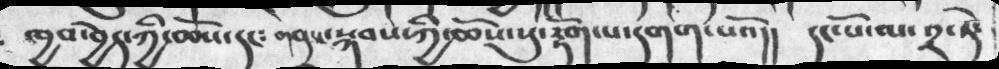ཁྱབ་བྱེད་ཀྱི་ཆོས་དང༴ གནས་སྐབས་ཀྱི་ཆོས་སུ་རྟོག་པ་དགག་པའོ།།  དང་པོ་ལ་༢་ཏེ་
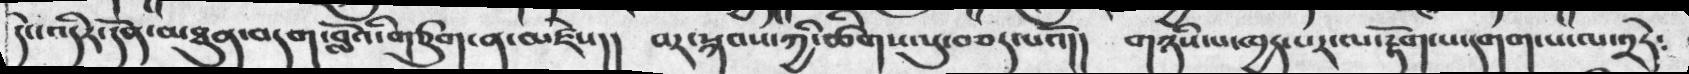དེང་འདིར་དོན་མཐུན་བདག་བློའི་གཙུག་ན་མཛེས།།  བར་སྐབས་ཀྱི་ཚིགས་སུ་བཅད་པའོ།།  གཉིས་པ་ཁྱད་པར་རྟོག་པ་དགག་པ་ལ་༢ཏེ༴
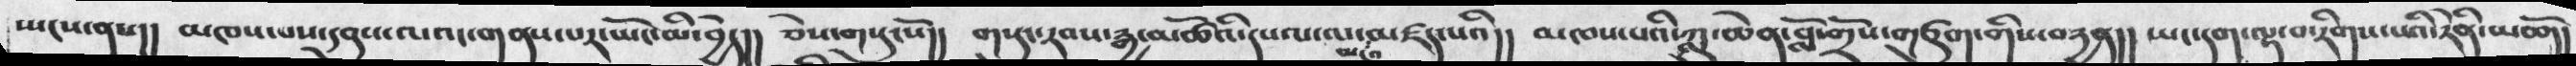ཡངས་ནས།། མཁས་པས་དབུས་ལའང་གནས་པར་ཡོང་མི་བྱེད།།  ཅེས་གསུངསོ།།   གསུང་རབ་རྒྱ་མཚོའི་དཔལ་ལ་མངའ་མཛད་པའི།།  མཁས་པའི་ཀླུ་ཆེན་གཙུག་གིས་བརྱན།།  ཡང་དག་ལྟ་བ་རིགས་པའི་རེནི་མཆོ།།
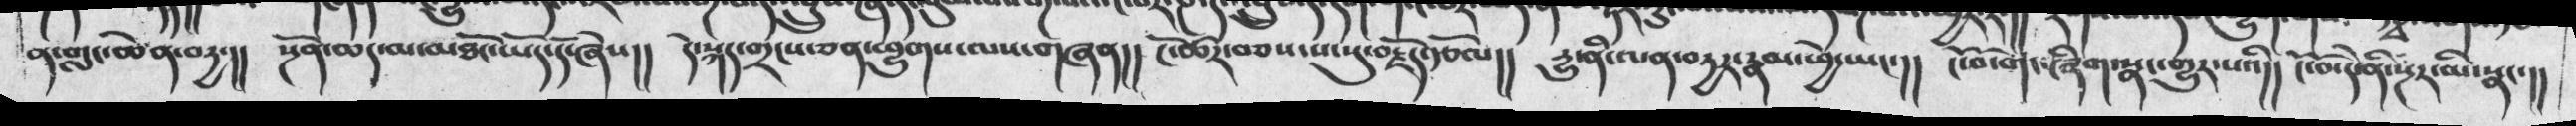ན་གླང་ཆེན་བདྱ་།།  སྔོན་ཆད་མ་མཐོང་ཡོད་དོ་ཞེས།།  དེ་སྐད་གྲངས་ཅན་ཕྱུགས་ལས་གཞན།།  ངོ་ཚར་བཅས་པ་སུ་བརྗོད་རྩོལ།།  དྱུ་ནི་ལན་བདྱར་རྣམ་ཕྱེ་ཡང་།།  ངོ་བོ་གང་ཞིག་སྣང་གྱུར་པའི།།  ངོ་བོ་དེ་ནི་སྔར་མི་སྣང་།།
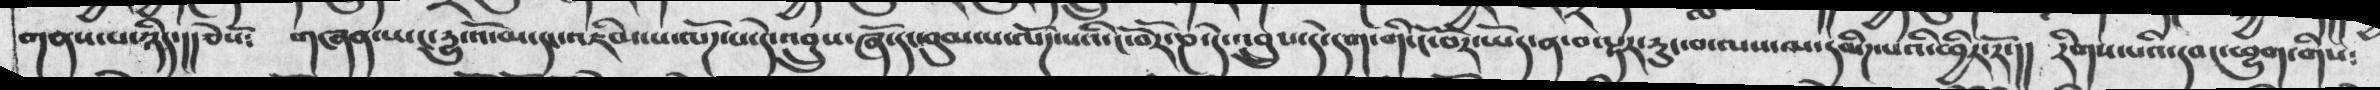གནས་པ་ཉིད་།།ཅེསོ༴  གཞན་ཡང་དྱུ་འོ་མ་དང་འཇིམ་པ་ལོཌ་པ་དེ་འབྲུས་ཞོ་དང་བུམ་པ་ལོཌ་པའི་ངོ་བོར་ཎ་དེ་འབྲུས་དེ་དག་གི་ངོ་བོར་ཡོད་ན་བལྟར་རུང་བ་ལས་མ་དམིཌ་པའི་ཕྱིར་རོ་།།  རིགས་པའི་དབང་ཕྱུག་གིས༴
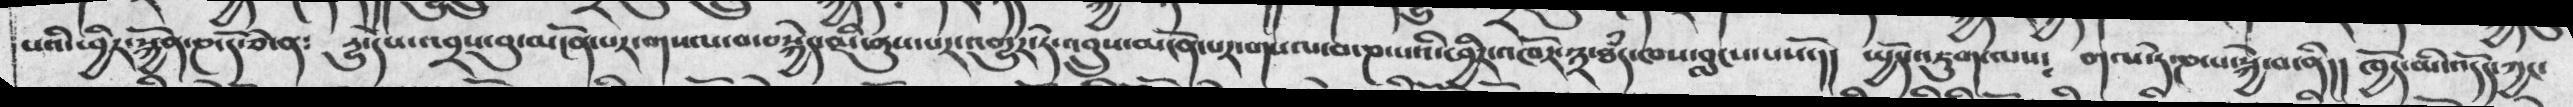པའི་ཕྱིར་སྐྱོན་ཎ་དོ་ཅེ་ན༴  དྱུ་དེས་འབྲས་བུ་མངོན་པར་གསལ་བ་བསྐྱེད་མི་ནུས་པར་འགྱུར་ཏེ་འབྲུས་མངོན་པར་གསལ་བ་ཎ་པའི་ཕྱིར་འཁོར་༣་ཐཾད་ཁས་བླངས་པསོ་།།  སྤྱོད་འཇུག་ལས༴  གལ་ཏེ་ཎ་པ་སྐྱེ་བ་ནི།།  ཁྱོད་མི་འདོད་ཀྱང་
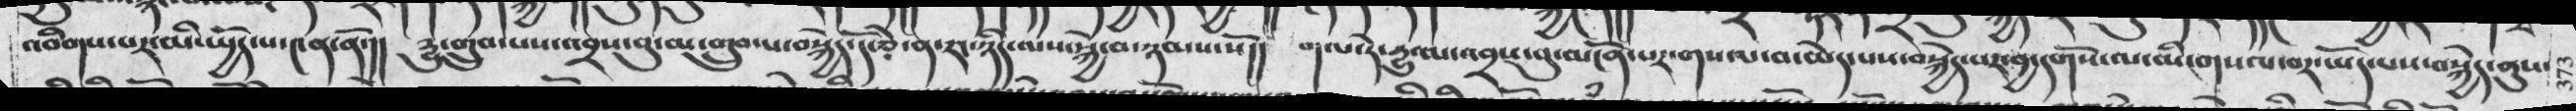འབིགས་པར་མི་སྤྱོད་པ་༤ན་ནོ་།།  དྱུ་གྲུབ་པས་འབྲས་བུ་མ་གྲུབ་པ་བསྐྱེད་དོ་ཅེ་ན་རང་ཉིད་ལས་སྐྱེ་བ་ཉམས་སོ།།  གལ་ཏེ་དྱུ་ལ་འབྲས་བུ་མངོན་པར་གསལ་བ་མེད་པས་བསྐྱེད་པར་བྱ་དགོས་ལ་མི་གསལ་བར་ཡོད་པས་བསྐྱེད་ནུས་
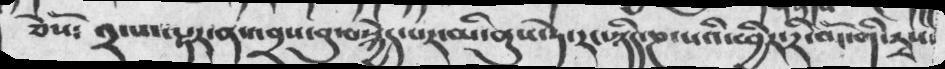ཅེསོ༴ ༢་པ་ལྟར་ནས་འབྲས་བུ་བསྐྱེད་པར་མི་ནུས་ཏེ་རང་ཉིད་ཎ་པའི་ཕྱིར་རི་བོང་གི་རྭས་
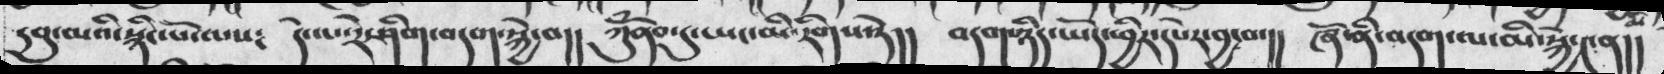དབུ་མའི་སྙིང་པོ་ལས༴  དེ་ལ་རེ་ཤིག་བདག་སྐྱེ་བ།། ཀོུཾནབ་དུ་ཡང་མི་རིགས་ཏེ།།  བདག་ཉིད་ཡོད་ཕྱིར་དཔེར་བྱ་བ་།།  ཞོ་ནི་བདག་ལ་མི་སྐྱེ་༤ན།།
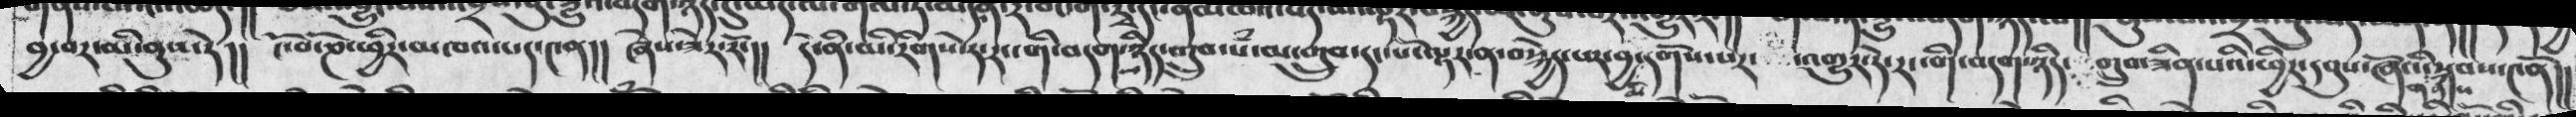བྱ་བར་མི་ནུས་ཏེ།།  ངོ་བོ་ཎ་ཕྱིར་མཁའ་པད་༤ན།།  ཞེས་ཟེར་རོ་།།  དེ་ནི་མི་རིགས་ཏེ་རང་གི་བདག་ཉིད་གྲུབ་བཾ་མ་གྲུབ་དང་པོ་ལྟར་ན་བསྐྱེད་པར་བྱ་མི་དགོས་པར་  ་འགྱུར་ཏེ་རང་གི་བདག་ཉིད་  གྲུབ་ཟིན་པའི་ཕྱིར་དབུས་ཞོའི་གནས་སྐབས་༤ནོ།།
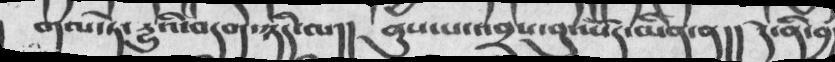གལ་ཏེ་དྱུའི་བདག་ཉིད་ལ།།  ནུས་པ་འབྲས་བུ་ཡོད་མིན་ན།།  དེ་ནི་བྱ
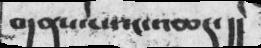གནས་པའང་འཆད་།།
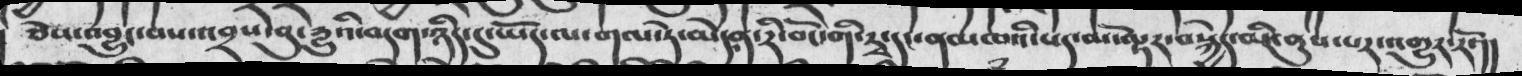ཅེས་འབྱུང་བས་འབྲས་བུ་དྱུའི་བདག་ཉིད་དུ་ཡོད་ལ་གལ་ཏེ་མེད་ན་རི་བོང་གི་རྭ་དང་ནམཁའི་པད་མ་ལྟར་བསྐྱེད་མི་ནུས་པར་འགྱུར་རོ་།།
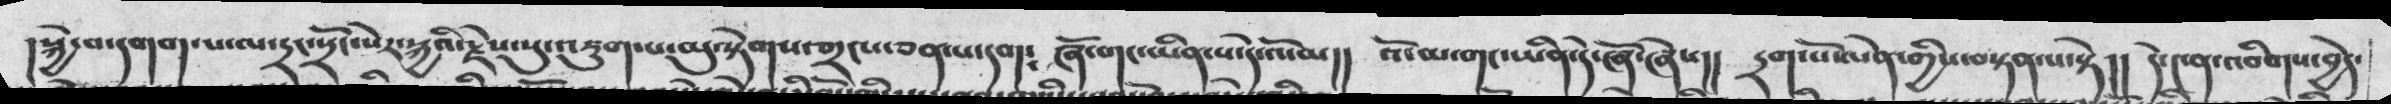།སྐྱེ་བ་དགག་པ་ལ་དྲང་སྲོང་སེར་སྐྱའི་རྗེས་སུ་འཇུག་པ་མུ་སྟེགས་གྲངས་ཅན་པ་དག༴  ཞོ་གང་ཡིན་པ་དེ་འོ་མ།།  འོ་མ་གང་ཡིན་དེ་ཞོ་ཞེས།།  དྲག་པོ་ལེན་གྱིས་བསྟན་པ་སྟེ།།  དེ་༤ན་འབིགས་བྱེད་
